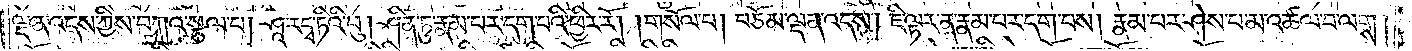ལྡན་འདས་ཀྱིས་བཀའ་སྩལ་པ། ཤཱ་ར་དྭ་ཏིའི་བུ། ཤིན་ཏུ་རྣམ་པར་དག་པའི་ཕྱིར་རོ། །གསོལ་པ། བཅོམ་ལྡན་འདས། ཇི་ལྟར་ན་རྣམ་པར་དག་པས། རྣམ་པར་ཤེས་པ་མ་འཚལ་བ་ལགས།
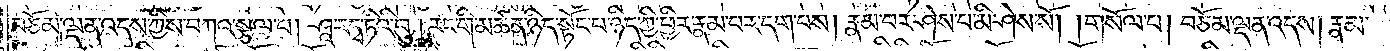བཅོམ་ལྡན་འདས་ཀྱིས་བཀའ་སྩལ་པ། ཤཱ་ར་དྭ་ཏིའི་བུ། རང་གི་མཚན་ཉིད་སྟོང་པ་ཉིད་ཀྱི་ཕྱིར་རྣམ་པར་དག་པས། རྣམ་པར་ཤེས་པ་མི་ཤེས་སོ། །གསོལ་པ། བཅོམ་ལྡན་འདས། རྣམ་
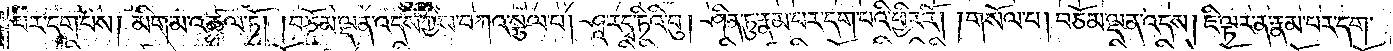པར་དག་པས། མིག་མ་འཚལ་ཏོ། །བཅོམ་ལྡན་འདས་ཀྱིས་བཀའ་སྩལ་པ། ཤཱ་ར་དྭ་ཏིའི་བུ། ཤིན་ཏུ་རྣམ་པར་དག་པའི་ཕྱིར་རོ། །གསོལ་པ། བཅོམ་ལྡན་འདས། ཇི་ལྟར་ན་རྣམ་པར་དག་
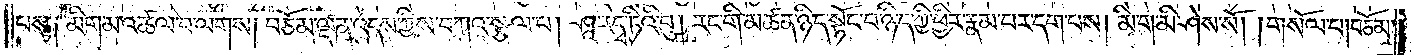པས༑ མིག་མ་འཚལ་བ་ལགས། བཅོམ་ལྡན་འདས་ཀྱིས་བཀའ་སྩལ་པ། ཤཱ་ར་དྭ་ཏིའི་བུ། རང་གི་མཚན་ཉིད་སྟོང་པ་ཉིད་ཀྱི་ཕྱིར་རྣམ་པར་དག་པས། མིག་མི་ཤེས་སོ། །གསོལ་པ། བཅོམ་
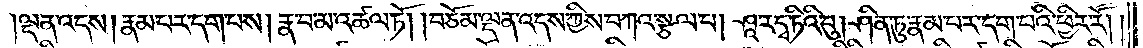ལྡན་འདས། རྣམ་པར་དག་པས། རྣ་བ་མ་འཚལ་ཏོ། །བཅོམ་ལྡན་འདས་ཀྱིས་བཀའ་སྩལ་པ། ཤཱ་ར་དྭ་ཏིའི་བུ། ཤིན་ཏུ་རྣམ་པར་དག་པའི་ཕྱིར་རོ། །
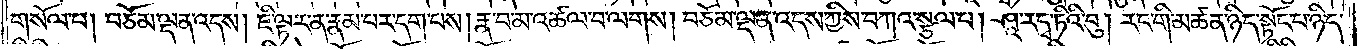གསོལ་པ། བཅོམ་ལྡན་འདས། ཇི་ལྟར་ན་རྣམ་པར་དག་པས། རྣ་བ་མ་འཚལ་བ་ལགས། བཅོམ་ལྡན་འདས་ཀྱིས་བཀའ་སྩལ་པ། ཤཱ་ར་དྭ་ཏིའི་བུ། རང་གི་མཚན་ཉིད་སྟོང་པ་ཉིད་
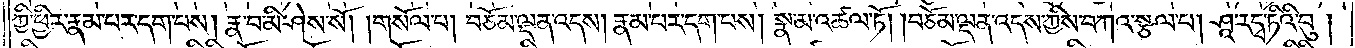ཀྱི་ཕྱིར་རྣམ་པར་དག་པས། རྣ་བ་མི་ཤེས་སོ། །གསོལ་པ། བཅོམ་ལྡན་འདས། རྣམ་པར་དག་པས། སྣ་མ་འཚལ་ཏོ། །བཅོམ་ལྡན་འདས་ཀྱིས་བཀའ་སྩལ་པ། ཤཱ་ར་དྭ་ཏིའི་བུ།
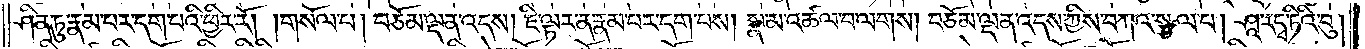ཤིན་ཏུ་རྣམ་པར་དག་པའི་ཕྱིར་རོ། །གསོལ་པ། བཅོམ་ལྡན་འདས། ཇི་ལྟར་ན་རྣམ་པར་དག་པས། སྣ་མ་འཚལ་བ་ལགས། བཅོམ་ལྡན་འདས་ཀྱིས་བཀའ་སྩལ་པ། ཤཱ་རདྭ་ཏིའི་བུ།
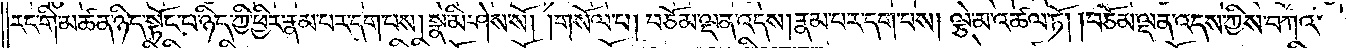རང་གི་མཚན་ཉིད་སྟོང་པ་ཉིད་ཀྱི་ཕྱིར་རྣམ་པར་དག་པས། སྣ་མི་ཤེས་སོ། །གསོལ་པ། བཅོམ་ལྡན་འདས། རྣམ་པར་དག་པས། ལྕེ་མ་འཚལ་ཏོ། །བཅོམ་ལྡན་འདས་ཀྱིས་བཀའ་
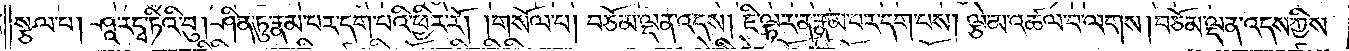སྩལ་པ། ཤཱ་རདྭ་ཏིའི་བུ། ཤིན་ཏུ་རྣམ་པར་དག་པའི་ཕྱིར་རོ། །གསོལ་པ། བཅོམ་ལྡན་འདས། ཇི་ལྟར་ན་རྣམ་པར་དག་པས། ལྕེ་མ་འཚལ་བ་ལགས། བཅོམ་ལྡན་འདས་ཀྱིས་
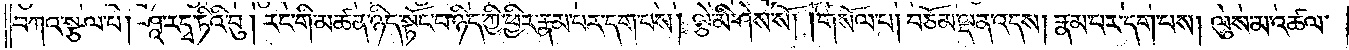བཀའ་སྩལ་པ། ཤཱ་ར་དྭ་ཏིའི་བུ། རང་གི་མཚན་ཉིད་སྟོང་པ་ཉིད་ཀྱི་ཕྱིར་རྣམ་པར་དག་པས། ལྕེ་མི་ཤེས་སོ། །གསོལ་པ། བཅོམ་ལྡན་འདས། རྣམ་པར་དག་པས། ལུས་མ་འཚལ་
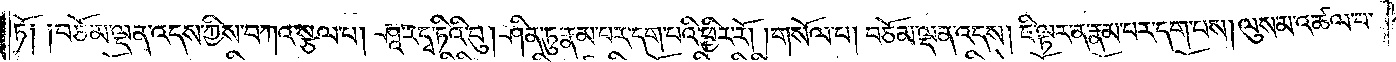ཏོ༑ ༑བཅོམ་ལྡན་འདས་ཀྱིས་བཀའ་སྩལ་པ། ཤཱ་རདྭ་ཏིའི་བུ། ཤིན་ཏུ་རྣམ་པར་དག་པའི་ཕྱིར་རོ། །གསོལ་པ། བཅོམ་ལྡན་འདས། ཇི་ལྟར་ན་རྣམ་པར་དག་པས། ལུས་མ་འཚལ་བ་
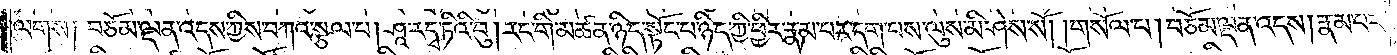ལགས༑ བཅོམ་ལྡན་འདས་ཀྱིས་བཀའ་སྩལ་པ། ཤཱ་རདྭ་ཏིའི་བུ། རང་གི་མཚན་ཉིད་སྟོང་པ་ཉིད་ཀྱི་ཕྱིར་རྣམ་པར་དག་པས་ལུས་མི་ཤེས་སོ། །གསོལ་པ། བཅོམ་ལྡན་འདས། རྣམ་པར་
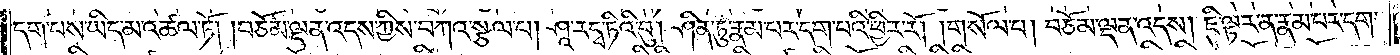དག་པས་ཡིད་མ་འཚལ་ཏོ། །བཅོམ་ལྡན་འདས་ཀྱིས་བཀའ་སྩལ་པ། ཤཱ་རདྭ་ཏིའི་བུ། ཤིན་ཏུ་རྣམ་པར་དག་པའི་ཕྱིར་རོ། །གསོལ་པ། བཅོམ་ལྡན་འདས། ཇི་ལྟར་ན་རྣམ་པར་དག་
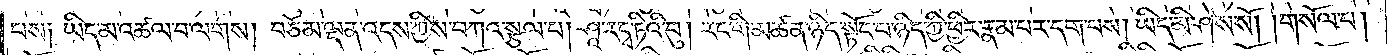པས༑ ཡིད་མ་འཚལ་བ་ལགས། བཅོམ་ལྡན་འདས་ཀྱིས་བཀའ་སྩལ་པ། ཤཱ་རདྭ་ཏིའི་བུ། རང་གི་མཚན་ཉིད་སྟོང་པ་ཉིད་ཀྱི་ཕྱིར་རྣམ་པར་དག་པས། ཡིད་མི་ཤེས་སོ། །གསོལ་པ།
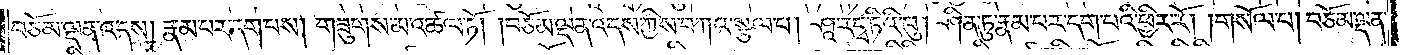བཅོམ་ལྡན་འདས། རྣམ་པར་དག་པས། གཟུགས་མ་འཚལ་ཏོ། །བཅོམ་ལྡན་འདས་ཀྱིས་བཀའ་སྩལ་བ། ཤཱ་རདྭ་ཏིའི་བུ། ཤིན་ཏུ་རྣམ་པར་དག་པའི་ཕྱིར་རོ། །གསོལ་པ། བཅོམ་ལྡན་
